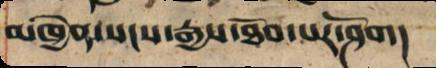མཁྱེན་སངས་རྒྱས་ཐོབ་པར་ཤོག།
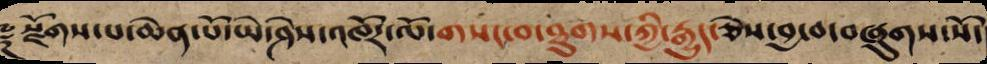༈ སྫོགས་པ་ཆེན་པོ་ཡེ་ཤེས་འཁོར་ལོ་གསང་བ་ཐུགས་ཀྱི་རྒྱུད་ཅེས་བྱ་བ་བཞུགས་སོ་
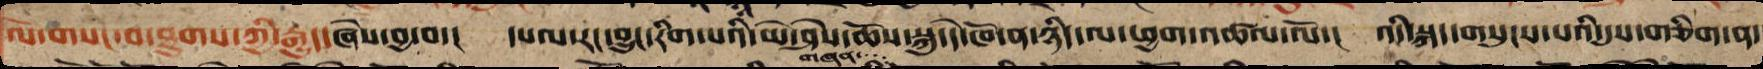ལོ་གསང་བ་ཐུགས་ཀྱི་རྒྱུད་ཅེས་བྱ་བ་། དཔལ་རང་བྱུང་རིག་པའི་ཆོས་སྐུ་དེ་ཁོ་ན་ཉིད་ལ་ཕྱག་འཚལ་ལོ་། འདི་སྐད་གསུངས་པའི་དུས་གཅིག་ན་
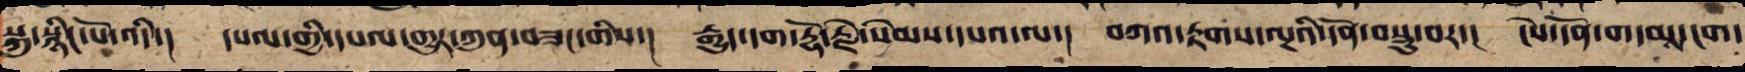ཀུན་སྙིང་པོ་འདི་། དཔལ་གྱི་དཔལ་གྱུར་ཀུན་བཟང་གིས་། རྒྱུད་དག་རྡོ་རྗེ་སེམས་དཔའ་ལ་། བཀའ་རྟགས་ལྔ་ཡི་དོན་བསྡུས་ནས་། ངེས་དོན་གདམས་ངག་
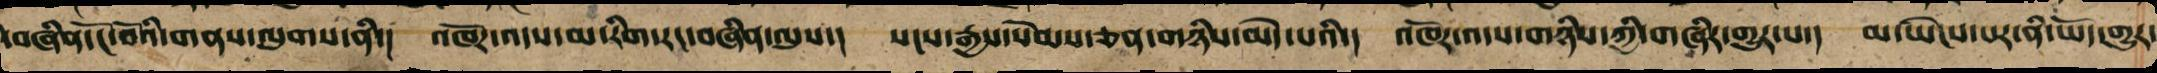དེ་བཞིན་ངོ་བོའི་གནས་ལུགས་ནི་། འཁོར་འདས་མ་རིག་རང་བཞིན་ལུས་། སངས་རྒྱས་སེམས་ཅན་གཉིས་མེད་པའི་། འཁོར་འདས་གཉིས་ཀྱི་གཞིར་གྱུར་པ་། མ་ཡེངས་པར་ནི་ཡོད་གྱུར་
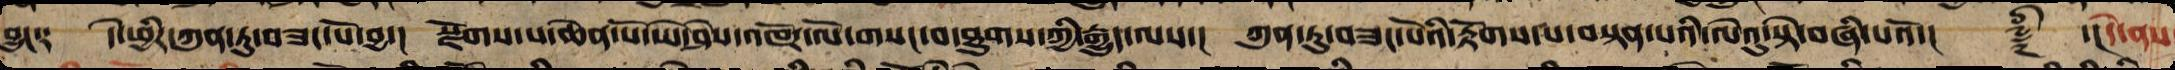བྱུང༑ དེ་ཕྱིར་ཀུན་ཏུ་བཟང་པོ་བྱ་། སྫོགས་པ་ཆེན་པོ་ཡེ་ཤེས་འཁོར་ལོ་གསང་བ་ཐུགས་ཀྱི་རྒྱུད་ལས་། ཀུན་ཏུ་བཟང་པོའི་རྟོགས་པ་བསྟན་པའི་ལེའུ་སྟེ་བཞི་པའོ་།། ༈ ་།དེ་ནས་
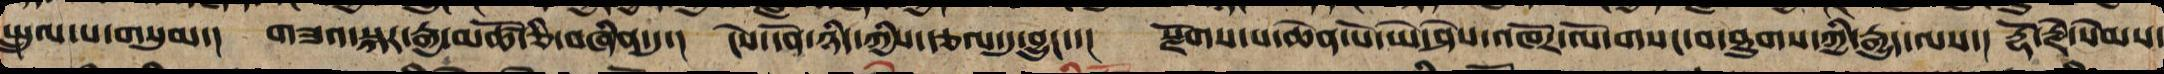སྤྲུལ་པ་གསུམ་།  གཟའ་སྐར་རྒྱ་མཚོ་་ཅི་བཞིན་དུ་།  ངེས་དོན་ཉིད་ཀྱིས་རྩལ་དུ་བྱུང་་།   སྫོགས་པ་ཆེན་པོ་ཡེ་ཤེས་འཁོར་ལོ་གསང་བ་ཐུགས་ཀྱི་རྒྱུད་ལས་། རྡོ་རྗེ་སེམས་
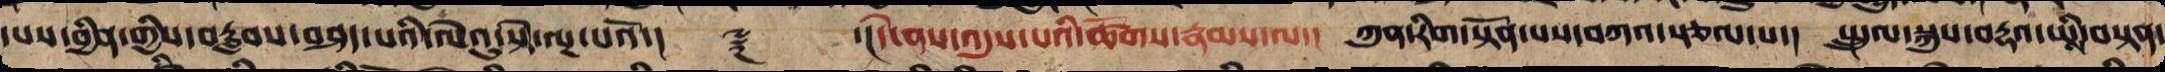དཔས་བྱིན་གྱིས་བརླབས་བཤད་པའི་ལེའུ་སྟེ་ལྔ་པའོ་།།   ༈       ་།།དེ་ནས་འདུས་པའི་ཚོགས་རྣམས་ལ་།  ཀུན་རིག་སྟོན་པས་བཀའ་སྩལ་པ་།  སྤྲུལ་སྐུས་བརྡའ་ཡི་བསྟན་
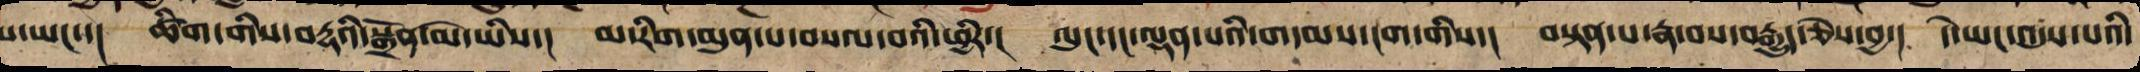པ་ཡང་་།  ཚིག་གིས་བརྡའི་སྒྲོན་མེ་ཡིས་།  མ་རིག་མུན་པ་བསལ་བའི་ཕྱིར་།  ལུང་དང་ལྡན་པའི་གདམས་ངག་གིས་།  བསྟན་པ་རྣ་བས་བརྒྱུད་ཅེས་བྱ་།  དེ་ཡང་འདུས་པའི་
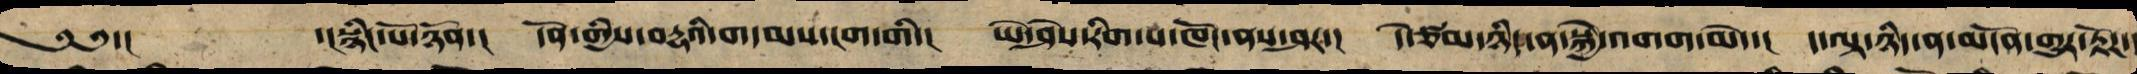༄༅་།  ་།སྙིང་པོ་ཉོན་། དོན་གྱི་བརྡ་ཡི་གདམས་ངག་གིས་། ཡེ་ཤེས་རིག་པ་ཁོང་ནས་ཤར་། དེ་ཙམ་ཉིད་ན་སྐྱེ་འགག་མེད་། ད་ལྟ་ཉིད་ན་མངོན་གྱུར་རྟོཌ་
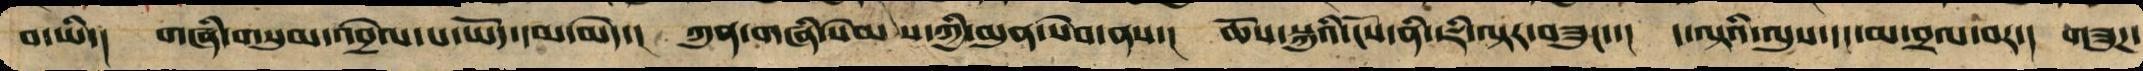བ་ཡི་། གཞི་གསུམ་འདྲེལ་བ་ཡོད་དམ་མེད་། ཀུན་གཞི་སེམས་ཀྱི་མུན་སེབ་ནས་། ཆོས་སྐུ་ངོས་ནི་ཇི་ལྟར་བཟུང་་། ད་ལྟའི་ལུས་དང་མ་བྲལ་བར་། གཟུཌ་
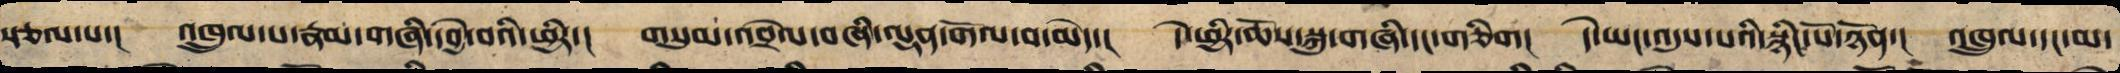སྩལ་པ་། འཁྲུལ་པ་རྣམ་བཞི་དབྱེ་བའི་ཕྱིར་། གསུམ་འབྲེལ་བཞི་ལྡན་གོལ་བ་མེད་། དེ་ཕྱིར་ཆོས་སྐུ་གཞི་དང་གཅིག། དེ་ཡང་འདུས་པའི་སྙིང་པོ་ཉོན་། འཁྲུལ་དང་མ་
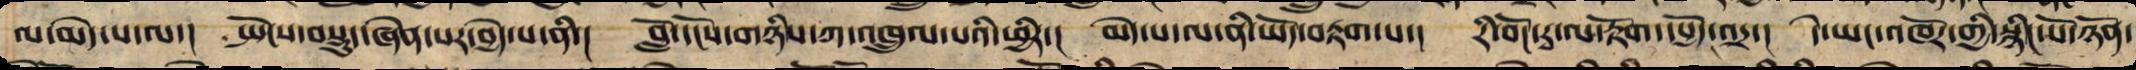ལ་མེད་པ་ལ་། སྤོངས་བསྡུད་ཞེན་པ་བྱེད་པ་ནི་། བློ་དངོས་གཉིས་ཀ་འཁྲུལ་པའི་ཕྱིར་། མེད་པ་ལ་ནི་ཡོད་བརྟག་པ་། རི་བོང་རྭ་ལ་རྟོག་དཔྱོད་འདྲ་། དེ་ཡང་འཁོར་གྱི་སྙིང་པོ་ཉོན་
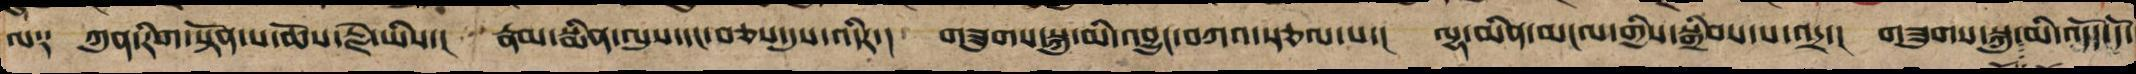ལ༑ ཀུན་རིག་སྟོན་པ་ཆོས་རྗེ་ཡིས་། རྣམ་སྨིན་ལུས་དང་བཅས་དུས་འདིར་། གཟུགས་སྐུ་མི་འབྱུང་བཀའ་སྩལ་པ་། ལྷ་མིན་མངལ་གྱིས་བསྒྲིབས་པ་འདྲ་། གཟུགས་སྐུ་ངོ་སྤྲོད་མི་འདོད་དོ་
